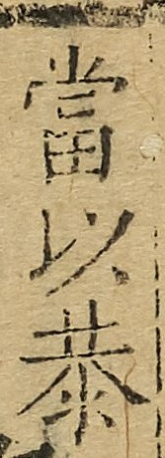當以恭
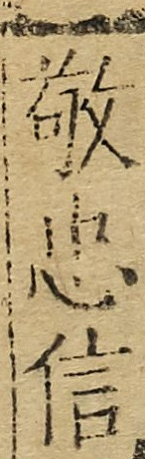敬忠信
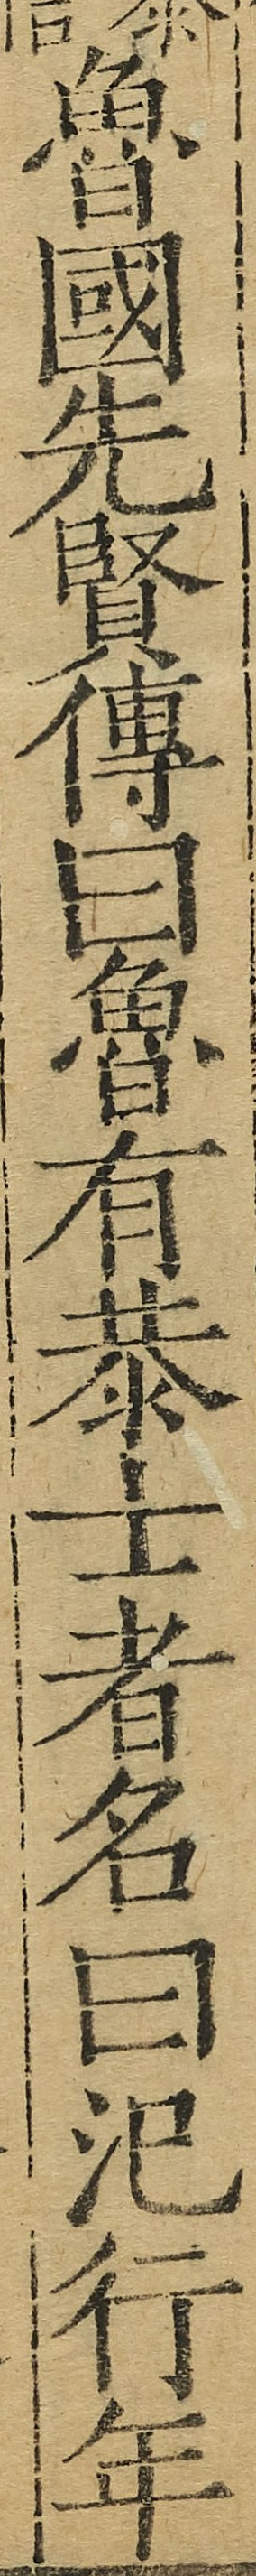魯國先賢傳曰魯有恭士者名曰氾行年
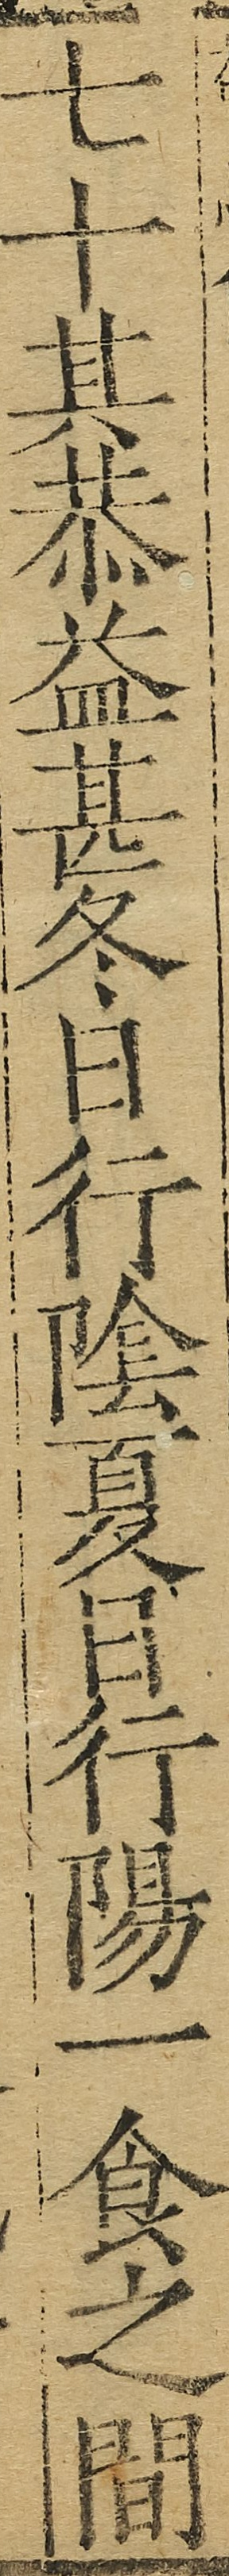七十其恭益甚冬日行陰夏日行陽一食之間
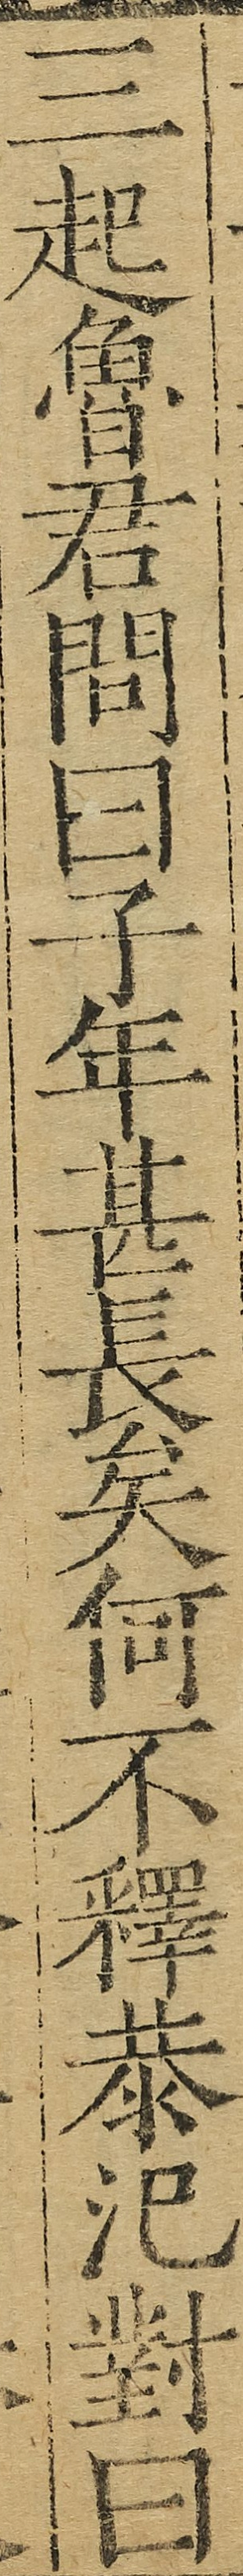三起魯君問曰子年甚長矣何不釋恭氾對曰
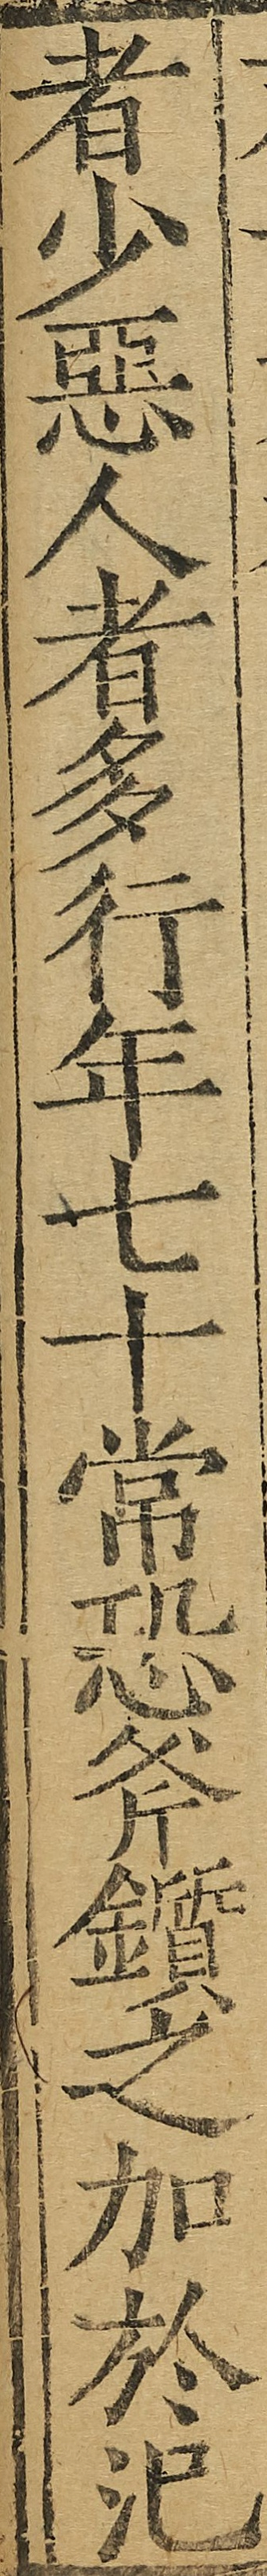者少惡人者多行年七十常恐斧鑕之加於氾
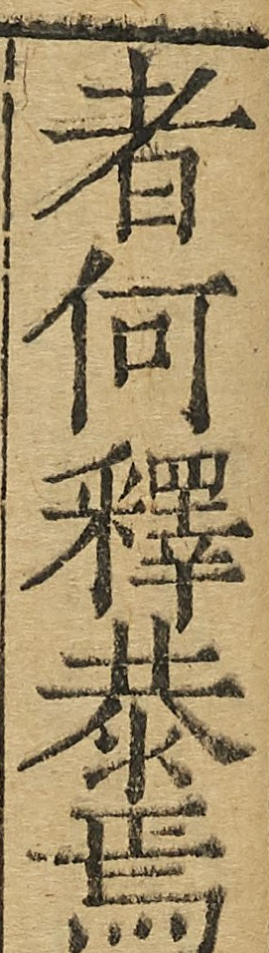者何釋恭焉
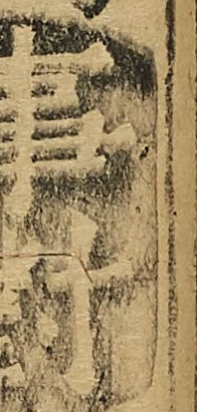事對
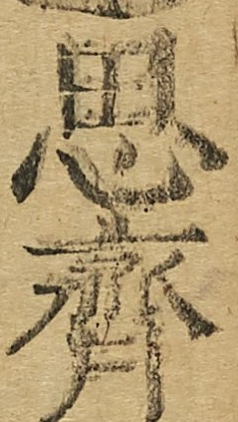思齊
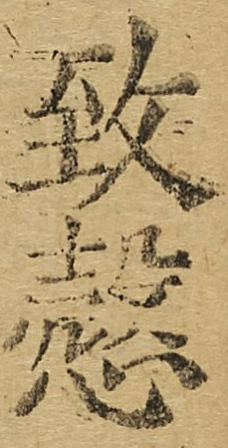致愨
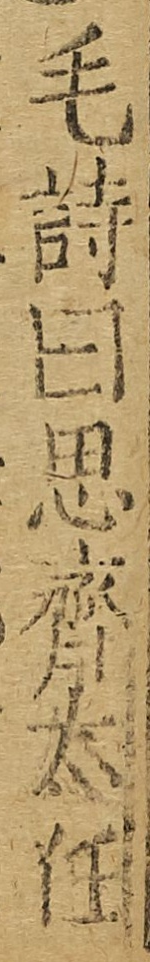毛詩曰思齊太任
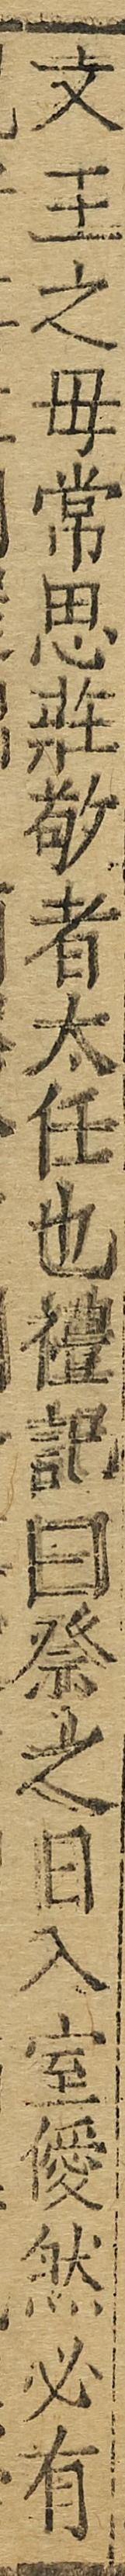文王之母常思莊敬者太任也禮記曰祭之日入室僾然必有
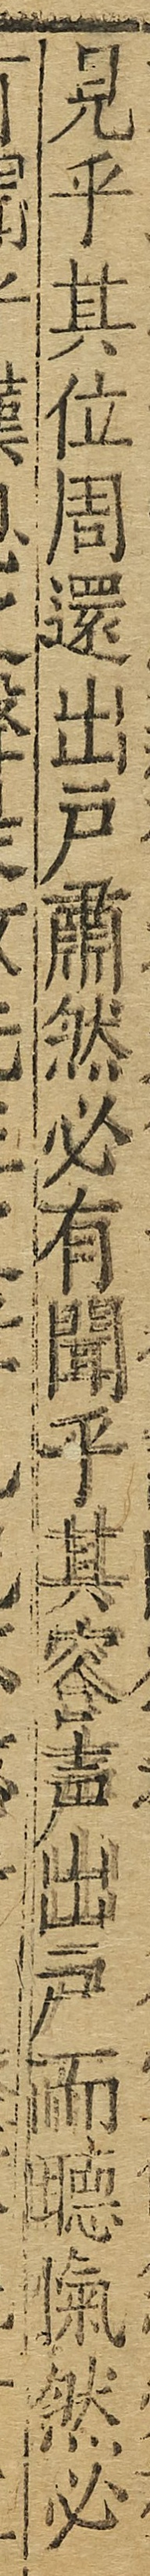見乎其位周還出戶肅然必有聞乎其容聲出戶而聽愾然必
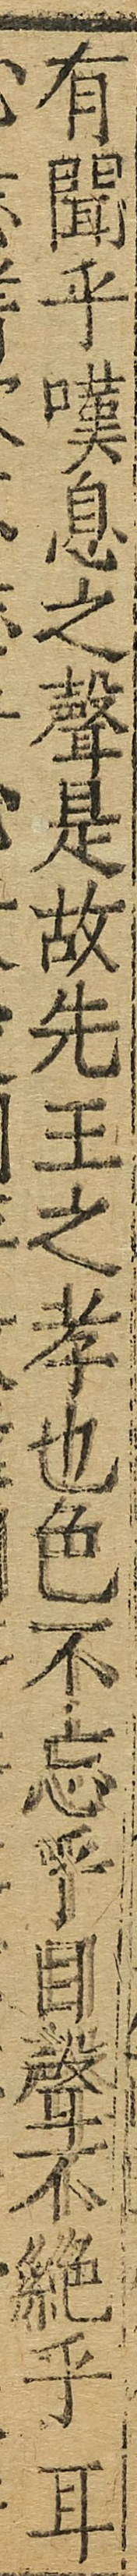有聞乎嘆息之聲是故先王之孝也色不忘乎目聲不絕乎耳
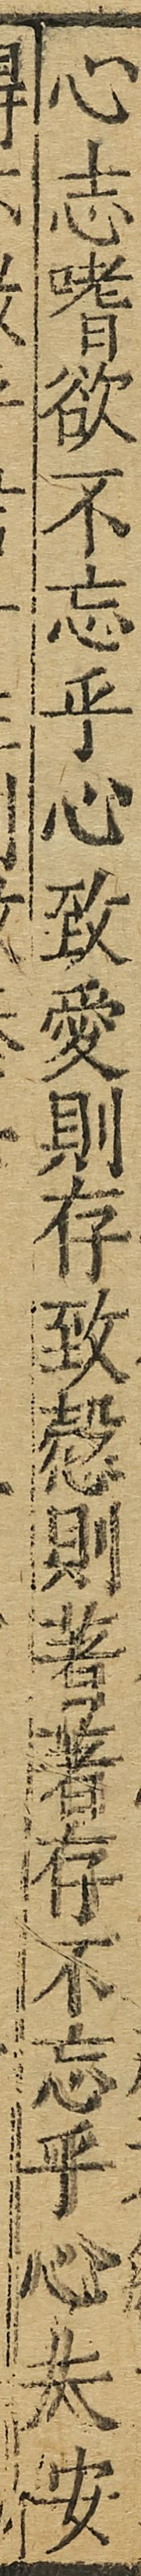心志嗜欲不忘乎心致愛則存致愨則著著存不忘乎心夫安
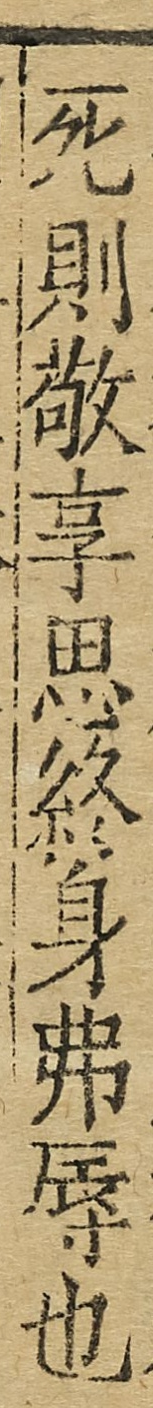死則敬享思終身弗辱也
